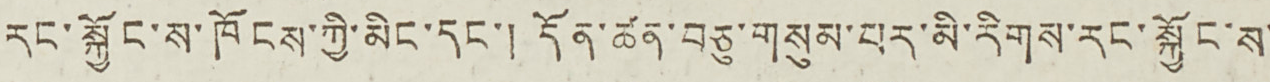རང་སྐྱོང་ས་ཁོངས་ཀྱི་མིང་དང་། དོན་ཚན་བཅུ་གསུམ་པར་མི་རིགས་རང་སྐྱོང་ས་
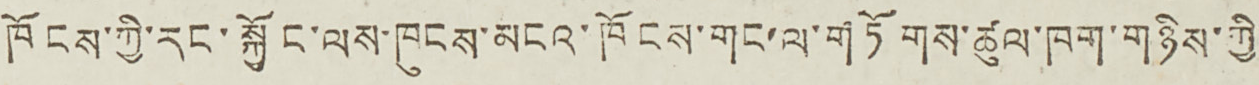ཁོངས་ཀྱི་རང་སྐྱོང་ལས་ཁུངས་མངའ་ཁོངས་གང་ལ་གཏོགས་ཚུལ་ཁག་གཉིས་ཀྱི་
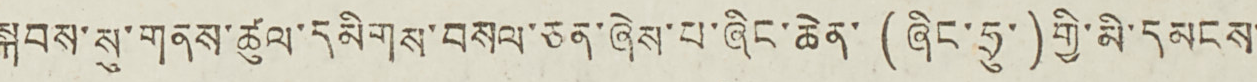སྐབས་སུ་གནས་ཚུལ་དམིགས་བསལ་ཅན་ཞེས་པ་ཞིང་ཆེན་ (ཞིང་ཧྲུ་) གྱི་མི་དམངས་
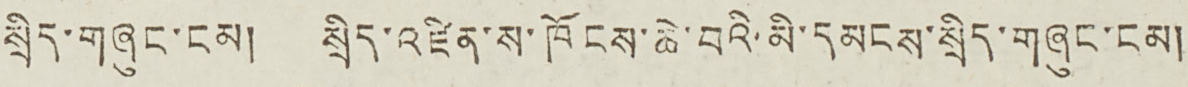སྲིད་གཞུང་ངམ། སྲིད་འཛིན་ས་ཁོངས་ཆེ་བའི་མི་དམངས་སྲིད་གཞུང་ངམ།
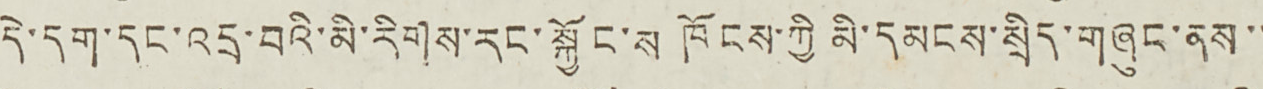དེ་དག་དང་འདྲ་བའི་མི་རིགས་རང་སྐྱོང་ས ཁོངས་ཀྱི མི་དམངས་སྲིད་གཞུང་ནས་་
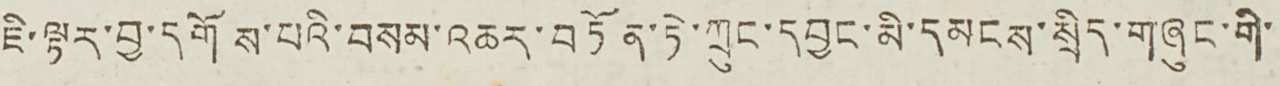ཇི་ལྟར་བྱ་དོགས་པའི་བསམ་འཆར་བཏོན་ཏེ་ཀྲུང་དབྱང་མི་དམངས་སྲིད་གཞུང་གི་
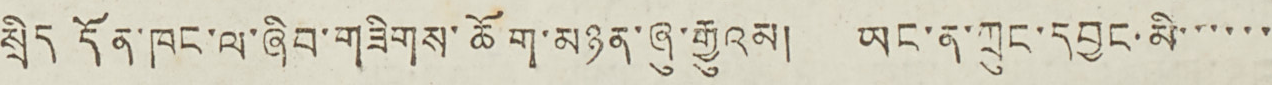སྲིད དོན་ཁང་ལ་ཞིབ་གཟིགས་ཆོག་མཉན་ཞུ་རྒྱུའམ། ཡང་ན་ཀྲུང་དབྱང་མི་་་་་་
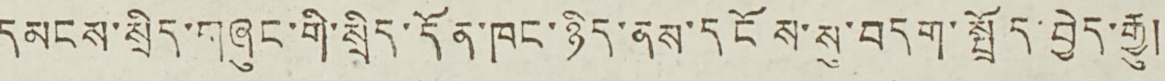དམངས་སྲིད་གཞུང་གི་སྲིད་དོན་ཁང་ཉིད་ནས་དངོས་སུ་བདག་སྤྲོད་བྱེད་རྒྱུ།
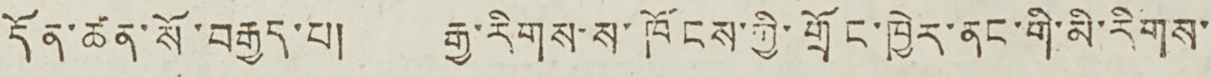དོན་ཚན་སོ་བརྒྱད་པ། རྒྱ་རིགས་ས་ཁོངས་ཀྱི་གྲོང་ཁྱེར་ནང་གི་མི་རིགས་
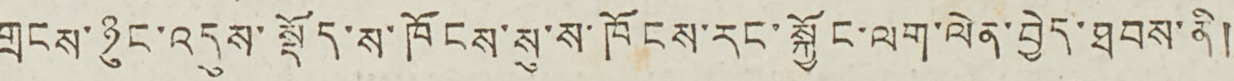གྲངས་ཉུང་འདུས་སྡོད་ས་ཁོངས་སུ་ས་ཁོངས་རང་སྐྱོང་ལག་ལེན་བྱེད་ཐབས་ནི།
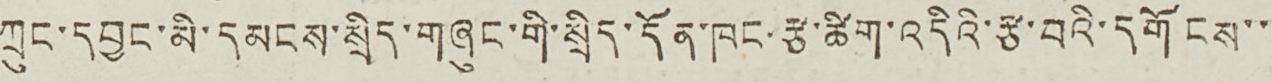ཀྲུང་དབྱང་མི་དམངས་སྲིད་གཞུང་གི་སྲིད་དོན་ཁང་རྩ་ཚིག་འདིའི་རྩ་བའི་དགོངས་་
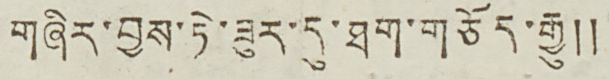གཞིར་བྱས་ཏེ་ཟུར་དུ་ཐག་གཅོད་རྒྱུ༎
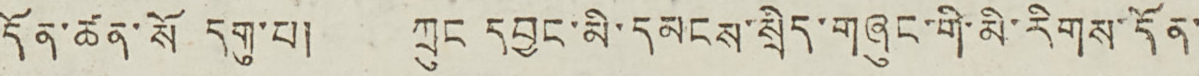དོན་ཚན་སོ དགུ་པ། ཀྲུང དབྱང་མི་དམངས་སྲིད་གཞུང་གི་མི་རིགས་དོན་
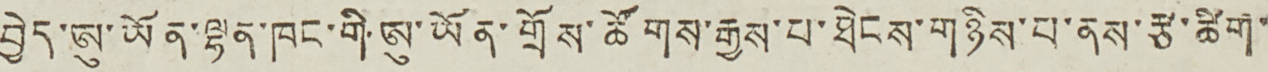བྱེད་ཨུ་ཡོན་ལྷན་ཁང་གི་ཨུ་ཡོན་གྲོས་ཚོགས་རྒྱས་པ་ཐེངས་གཉིས་པ་ནས་རྩ་ཚིག་
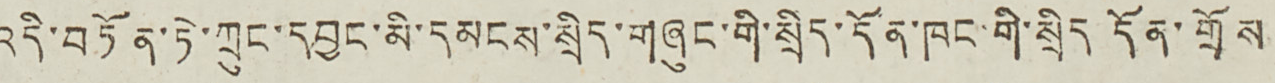འདི་བཏོན་ཏེ་ཀྲུང་དབྱང་མི་དམངས་སྲིད་གཞུང་གི་སྲིད་དོན་ཁང་གི་སྲིད དོན་གྲོས
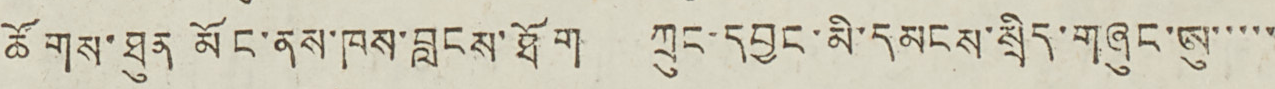ཚོགས་ཐུན མོང་ནས་ཁས་བླངས་ཐོག ཀྲུང་དབྱང་མི་དམངས་སྲིད་གཞུང་ཨུ་་་་་
